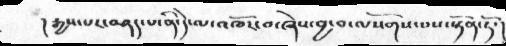། རྒྱས་པར་བཤད་པ་ནི་དེ་ལ་འཁོར་བ་ཞེས་བྱ་བ་ལསོགས་པས་སྟོན་ཏོ་།
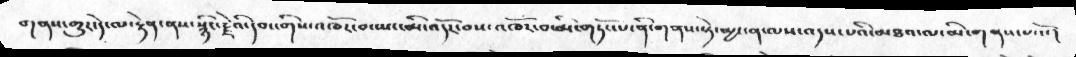གནས་གྱུར་དེ་ལ་རྟེན་ནས་སྙིང་རྗེའི་དབང་གིས་འཁོར་བ་ཡང་མི་འདོར་བས་འཁོར་བ་མི་གཏོང་པ་ནི་གནས་སྟེ་མྱ་ངན་ལས་འདས་པའི་མཐའ་ལ་མི་གནས་པའོ་།
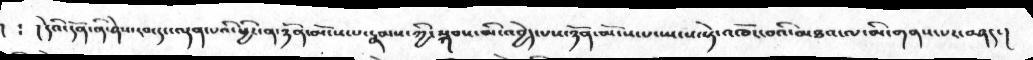། ༴ །དེའི་དོན་ནི་ཤེས་རབ་དང་ལྡན་པའི་ཕྱིར་ན་ཉོན་མོངས་པ་རྣམས་ཀྱི་སྐབས་མི་འབྱེད་པས་ཉོན་མོངས་པ་སྤངས་སྟེ་འཁོར་བའི་མཐའ་ལ་མི་གནས་པར་པར་བཤད་།
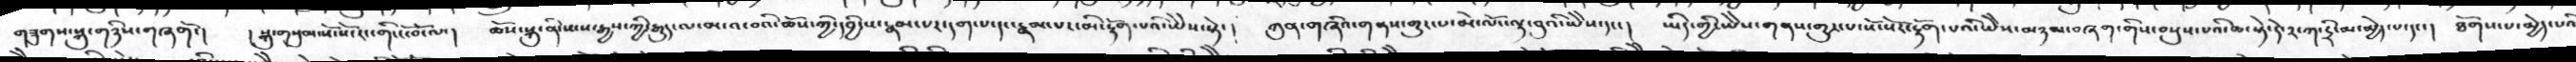གཟུགས་སྐུ་གཉིས་གཞགོ་།  ། སྐུ་གསུམ་སོ་སོ་རང་གི་ངོ་བོ་ལ་།  ཆོས་སྐུ་ནི་སངས་རྒྱས་ཀྱི་རྒྱུད་ལ་མངའ་བའི་ཆོས་ཀྱི་དབྱིངས་རྣམ་པར་དག་པ་དང་རྣམ་པར་མི་རྟོག་པའི་ཡཻས་སྟེ་།  ཀུན་གཞིའ་གནས་གྱུར་པ་མེ་ལོང་ལྟ་བུའི་ཡཻས་དང་།  ཡིད་གྱི་ཡཻས་གནས་གྱུར་པ་སོ་སོར་རྟོག་པའི་ཡཻས་མཉམ་བཞག་གིས་བསྡུས་པའི་ཆ་སྟེ་དེ་༢་ཀ་དྲི་མ་མྱེད་པ་དང་།  ཐོགས་པ་མྱེད་པའི
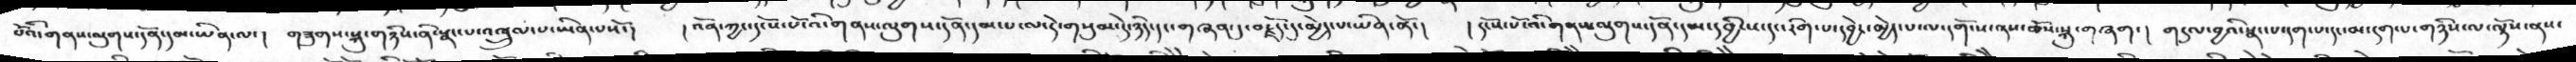པོའི་གནས་ལུགས་དོན་དམ་ཡིན་ལ་།  གཟུགས་སྐུ་གཉིས་ནི་སྣང་པ་འཁྲུལ་པ་ཡིན་པསོ་།  ། འོན་ཀྱང་དངོས་པོ་འི་གནས་ལུགས་དོན་དམ་པ་ལ་དེ་གསུམ་དེ་ཉིད་དང་གཞན་དུ་བརྗོད་དུ་མྱེད་པ་ཡིན་ནོ་།  ། དངོས་པོ་འི་གནས་ལུགས་དོན་དམ་དབྱིངས་དང་རིག་པ་དབྱེར་མྱེད་པ་ལ་དགོངས་ནས་ཆོས་སྐུ་གཞག་།  གདུལ་བྱའི་སྣང་པ་དག་པ་དང་མ་དག་པ་གཉིས་ལ་ལྟོས་ནས་
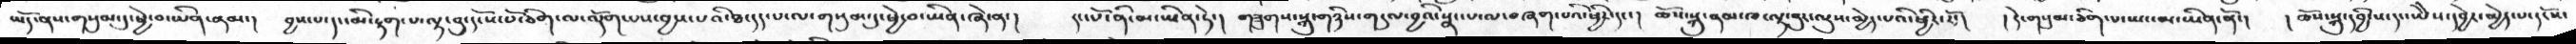ཡོད་ནས་གསུམ་དུ་ཕྱེ་བ་ཡིན་ནམ་།  བྱས་པ་དང་མི་རྟག་པ་ལྟ་བུ་དངོས་པོ་ཅིག་ལ་ལྡོག་པས་བྱས་པའི་ཐ་དད་པ་ལ་གསུམ་དུ་ཕྱེ་བ་ཡིན་ཞེ་ན་།  དང་པོ་ནི་མ་ཡིན་ཏེ་།  གཟུགས་སྐུ་གཉིས་གདུལ་བྱའི་སྣང་པ་ལ་བཞག་པའི་ཕྱིར་དང་།  ཆོས་སྐུ་ནམ་ཁ་ལྟ་བུ་ལུས་མྱེད་པའི་ཕྱིར་་རོ་།  །དེ་གསུམ་ཅིག་པ་ཡང་མ་ཡིན་ནོ་།  །ཆོས་སྐུ་དབྱིངས་དང་ཡེེས་དབྱེར་མྱེད་པ་དངོས་
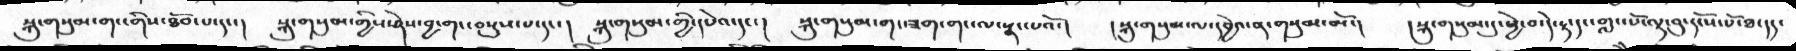སྐུ་གསུམ་གང་གིས་ཐོབ་པ་དང་།  སྐུ་གསུམ་གྱིས་ཤེས་བྱ་གང་བསྡུས་པ་དང་།  སྐུ་གསུམ་གྱི་དཔེའ་དང་།  སྐུ་གསུམ་གང་ཟག་གང་ལ་སྣང་པའོ་།  །སྐུ་གསུམ་ལ་དབྱེའ་ན་གསུམ་མོ་།  །སྐུ་གསུམ་དུ་ཕྱེ་བ་དེ་རྟ་དང་གླང་པོ་ལྟ་བུ་དངོས་པོ་ཐ་དད་
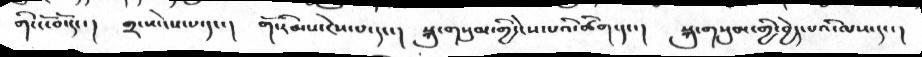གི་ངོ་བོ་དང་།  གྲངས་ངེས་པ་དང་།  གོ་རིམས་ངེས་པ་དང་།  སྐུ་གསུམ་གྱི་ངེས་པའི་ཚིག་དང་།  སྐུ་གསུམ་གྱི་བྱེད་པའི་ལས་དང་།
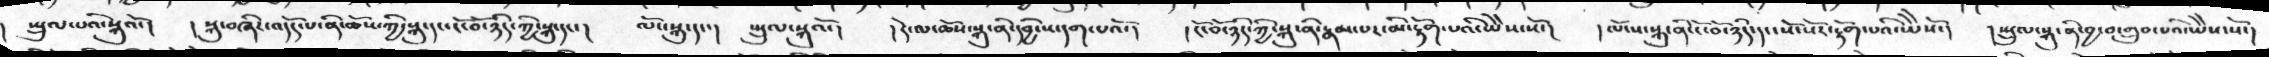སྤྲུལ་པའི་སྐུའོ་།   ། སྐུ་བཞིར་འདོད་པ་ནི་ཆོས་ཀྱི་སྐུ་དང་ངོ་བོ་ཉིད་ཀྱི་སྐུ་དང་།    ལོང་སྐུ་དང་།   སྤྲུལ་སྐུའོ་།    ། དེ་ལ་ཆོས་སྐུ་ནི་དབྱིངཔ་དག་པའོ་།   ། ངོ་བོ་ཉིད་ཀྱི་སྐུ་ནི་རྣམ་པར་མི་རྟོག་པའི་ཡཻས་སོ་།    ། ལོངས་སྐུ་ནི་ངོ་བོ་ཉིད་དང་སོ་སོར་རྟོག་པའི་ཡཻས་སོ་།    ། སྤྲུལ་སྐུ་ནི་བྱ་བ་གྲུབ་པའི་ཡཻས་སོ་།
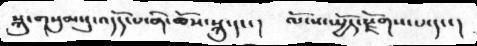སྐུ་གསུམ་དུ་འདོད་པ་ནི་ཆོས་སྐུ་དང་།     ལོངས་སྤྱོད་རྫོགས་པ་དང་།
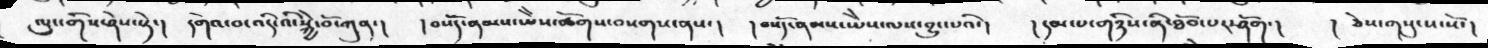ལུང་གིས་ཤེས་སྟེ་།    དགེའ་བ་འདི་འི་སྐྱེ་བོ་ཀུན་།   ། བསོད་ནམས་ཡཻས་ཚོགས་བསགས་ནས་།     །བསོད་ནམས་ཡཻས་ལས་བྱུང་པའི་།    ། དམ་པ་གཉིས་ནི་ཐོབ་པར་ཤོག་།   ། ཅེས་གསུངས་སོ་།
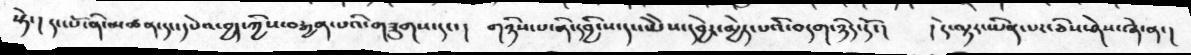སྟེ་།  དང་པོ་ནི་མཚན་དང་དཔེའ་བྱད་ཀྱིས་བརྒྱན་པའི་གཟུགས་དང་།  གཉིས་པ་ནི་དབྱིངས་དང་ཡེེས་དབྱེར་མྱེད་པའི་བདག་ཉིད་དོ་།   །དེ་ལྟར་ཡིན་པར་ཅིས་ཤེས་ཞེ་ན་།
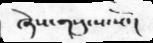ཞེས་གསུངས་སོ་།
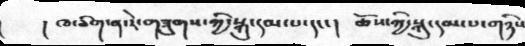། ཁ་ཅིག་ན་རེ་གཟུགས་ཀྱི་སྐུ་དམ་པ་དང་།  ཆོས་ཀྱི་སྐུ་དམ་པ་གཉིས
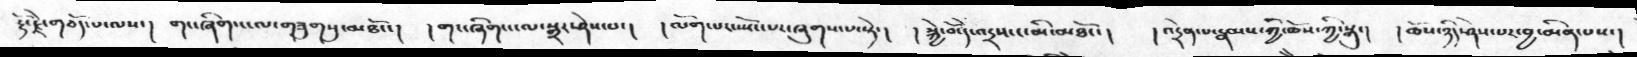རྡོ་རྗེ་གཅོད་པ་ལས་།  གང་ཞིག་ང་ལ་གཟུགསུ་མཐོང་།  ། གང་ཞིག་ང་ལ་སྒྲར་ཤེས་པ་།  ། ལོག་པར་སྤོང་པར་ཞུགས་པ་སྟེ་།  ། སྐྱེ་བོ་དེ་འདྲས་ང་མི་མཐོང་།  ། འདྲེན་པ་རྣམས་ཀྱི་ཆོས་ཀྱི་སྐུ་།  ། ཆོས་ཉིད་ཤེས་པར་བྱ་མིན་པས་།
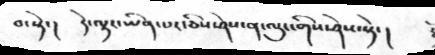བ་སྟེ་།  དེ་ལྟར་ཡིན་པར་ཅིས་ཤེས་ན་ལུང་གིས་ཤེས་སྟེ་།
